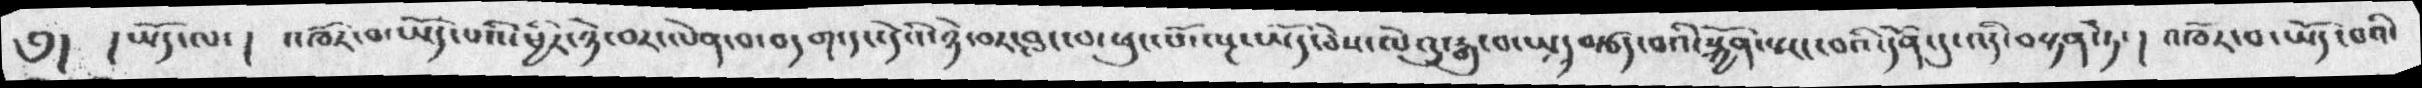༅། །ཡོད་ལ་། འཁོར་བ་ཡོད་པའི་ཕྱིར་ཉེ་བར་ལེན་བ་བདག་དེའི་ཉེ་བར་བླང་བ་ཕུང་པོ་ལྔ་ཡོད་ཅེས་ལེའུ་རྒུ་པ་ཡ།བརྩད་བའི་སྐྱོན་སང་བའི་དོན་དུ་འདི་བསྟན་ཏེ་། འཁོར་བ་ཡོད་བའི་
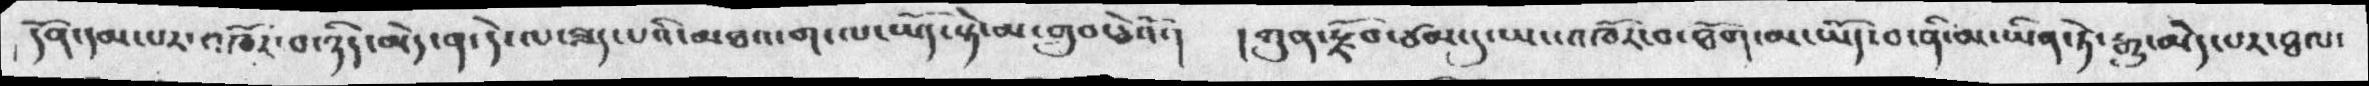དོན་དམ་པར་འཁོར་བ་ཉིད་མེད་ན་དེ་ལ་ཐད་པའི་མཐའ་ག་ལ་ཡོད་སྟེ་མ་གྲུབ་ཅེའོ་།  ། ཀུན་རྫོབ་ཙམ་དུ་ཡང་འཁོར་བ་ཐོག་མ་ཡོད་བ་ནི་མ་ཡིན་ཏེ་རྒྱུ་མེད་པར་ཐལ་
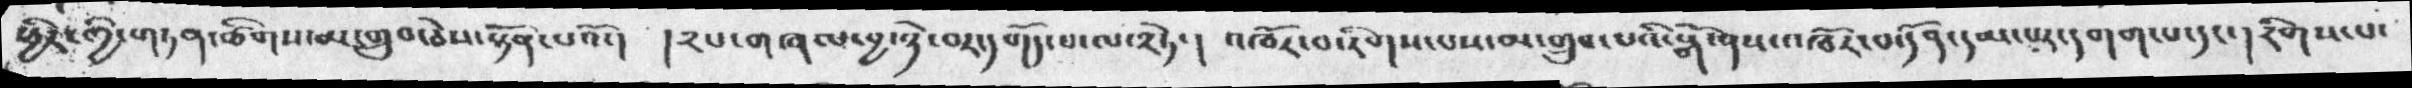ཕྱིར་གྱི་གཏན་ཚིགས་མ་གྲུབ་ཅེས་སྟོན་པའོ་།  །༢པ་གཞལ་བྱ་ཉེ་བར་དགོད་པ་ལ་༢ཏེ་།  འཁོར་བ་རིགས་པས་མ་གྲུབ་པའི་སྒོ་ནས་འཁོར་བ་དོན་དམ་པར་དགག་པ་དང་། རིགས་པ་
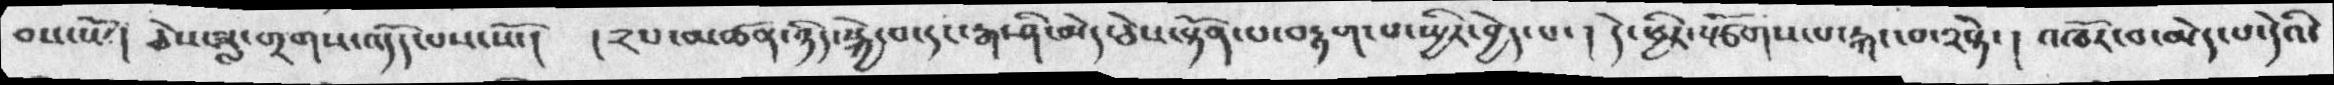བས་སོ་། ཅེས་ཟླ་གྲགས་འདོད་པས་སོ་།  །༢པ་མཚན་ཉིད་སྐྱེ་བ་དང་རྒ་ཤི་མེད་ཅེས་སྟོན་པ་བརྟག་པ་སྤྱིར་བྱེད་པ་། དེ་ཕྱིར་སྩོགས་པ་རྐང་བ་༢སྟེ་། འཁོར་བ་མེད་པ་དེའི་
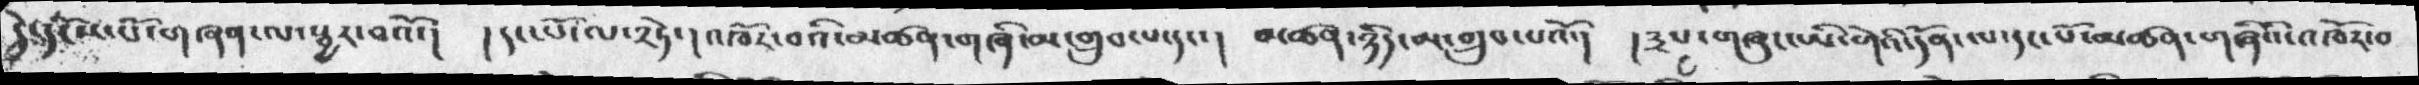དེ་དངོས་པོ་གཞན་ལ་སྦྱར་བའོ་།  །དང་པོ་ལ་༢ཏེ་། འཁོར་བའི་མཚན་གཞི་མ་གྲུབ་པ་དང་། མཚན་ཉིད་མ་གྲུབ་པའོ་། །༣པ་གཞུང་ཡི་གེའི་དོན་ལ་དང་པོ་མཚན་གཞིའི་འཁོར་བ
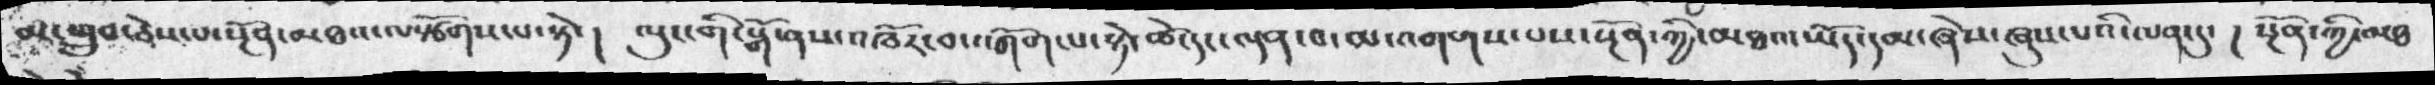མ་གྲུབ་ཅེས་པ་སྔོན་མཐའ་ལསྩོགས་པ་སྟེ་། ལུང་གི་སྒོ་ནས་འཁོར་བ་འགོག་པ་སྟེ་ཚེ་དང་ལྡན་བ་མ་འགགས་པས་སྔོན་ཀྱི་མཐའ་ཡོད་དམ་ཞེས་ཞུས་པའི་ལན་དུ་། སྔོན་ཀྱི་མཐ
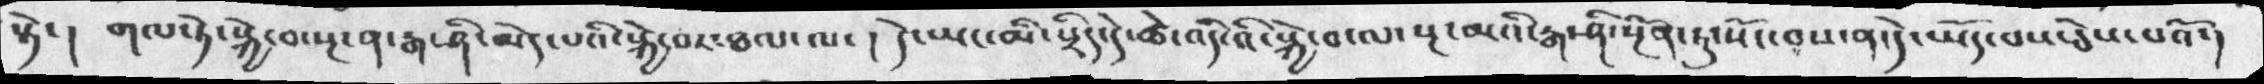སྟེ་། གལ་ཏེ་སྐྱེ་བ་སྔ་མ་རྒ་ཤི་མེད་པའི་སྐྱེ་བར་ཐལ་ལ་། དེ་ཡང་མི་སྲིད་དེ་ཚེ་འདི་འི་སྐྱེ་བ་ལ་སྔ་མའི་རྒ་ཤི་སྔོན་ཏུ་སོང་བས་ན་དེ་ཡོད་བས་ཅེས་པའོ་།
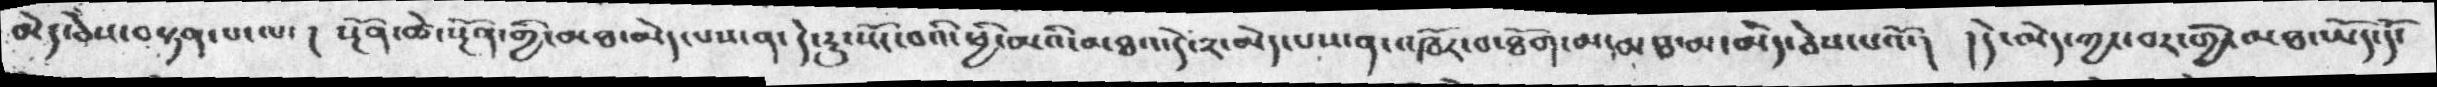མེད་ཅེས་བསྟན་པ་ལ་།  སྔོན་ཚེ་སྔོན་གྱི་མཐ་མེད་པས་ན་དེ་རུ་སོང་བའི་ཕྱི་མའི་མཐའ་དེ་༢་མེད་པས་ན་འཁོར་བ་ཐོག་མ་མཐ་མ་མེད་ཅེས་པའོ་།  །དེ་མེད་ཀྱང་བར་གྱི་མཐ་ཡོད་དོ་
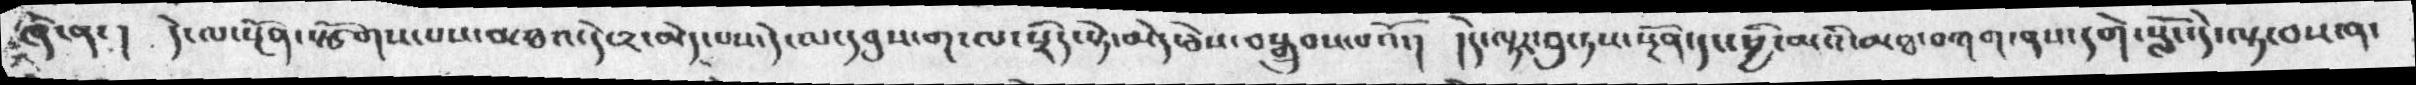ཞེ་ན་། དེ་ལ་སྔོན་སྩོགས་པས་མཐའ་དེ་༢་མེད་པས་དེ་ལ་དབུས་ག་ལ་སྲིད་སྟེ་མེད་ཅེས་བསྒྲུབས་པའོ་།  །དེ་ལྟར་བུ་ཏས་སྔོན་དང་ཕྱི་མའི་མཐ་བཀག་ནས་དགེ་སློང་དེ་ལྟ་བས་ན་
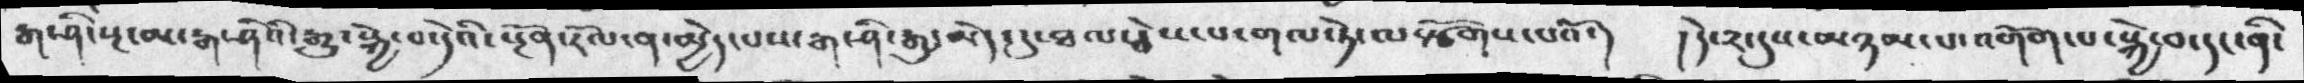རྒ་ཤི་སྔ་མ་རྒ་ཤིའི་རྒྱུ་སྐྱེ་བ་དེའི་སྔོན་རོལ་ན་མྱེད་པས་རྒ་ཤི་རྒུ་མེད་དུ་ཐལ་ཅེས་པ་གལ་ཏེ་ལསྩོགས་པའོ་།  །དེ་༢་དུས་མཉམ་པ་འགོག་པ་སྐྱེ་བ་དང་ནི་
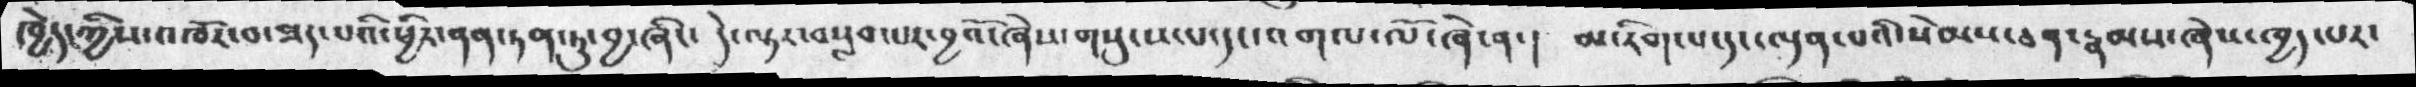ཁྱེད་ཀྱིས་འཁོར་བ་ཟད་པའི་ཕྱིར་ནན་ཏན་དུ་བྱ་ཞིང་ དེ་ལྟར་བསླབ་པར་བྱའོ་ཞེས་གསུངས་པ་དང་འགལ་ལོ་ཞེ་ན་།  མ་རིག་པ་དང་ལྡན་པའི་སེམས་ཅན་རྣམས་ཞེས་ཁྱད་པར་
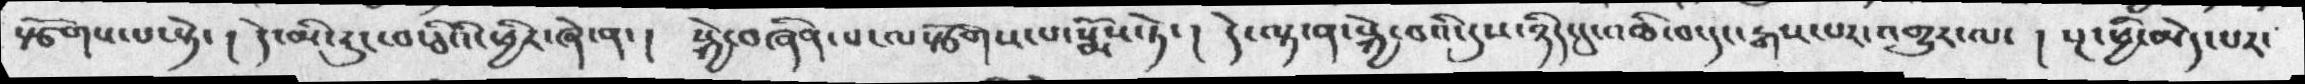སྩོགས་པ་སྟེ་། དེ་མི་རུང་བ་ཅིའི་ཕྱིར་ཞེ་ན་། སྐྱེ་བཞིན་པ་ལསྩོགས་པ་སྨོས་ཏེ་། དེ་ལྟ་ན་སྐྱེ་བའི་དུས་ཉིད་དུ་འཆི་བ་དང་རྒས་པར་འགྱུར་ལ་། སྔ་ཕྱི་མེད་པར་
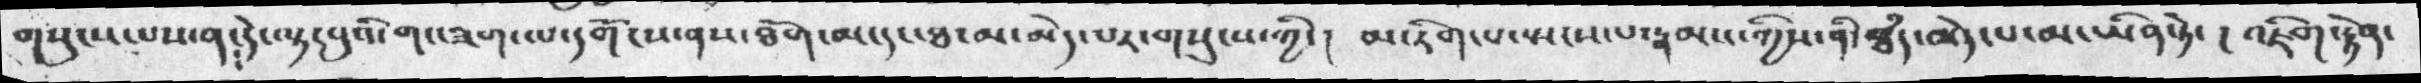གསུངས་པས་ན་དེ་ལྟ་བུའི་གང་ཟག་ལ་དགོངས་ནས་ཐོག་མ་དང་ཐ་མ་མེད་པར་གསུངས་ཀྱི་། མ་རིག་པ་སྤངས་པ་རྣམས་ཀྱིས་ནི་ཐཾད་མེད་པ་མ་ཡིན་ཏེ་། འཇིག་རྟེན་
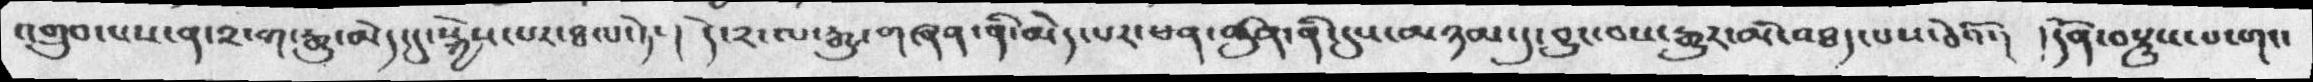འགྲུབ་པས་ན་༢་ག་རྒྱུ་མེད་དུ་སྐྱེས་པར་ཐལ་ཏེ་།  དེ་༢ལ་རྒྱུ་གཞན་ནི་མེད་པར་ཕན་ཚུན་ནི་དུས་མཉམ་དུ་བྱུང་བས་རྒྱུར་མི་འཐད་པས་ཅེའོ་།  །དོན་བསྡུས་པ་གང་
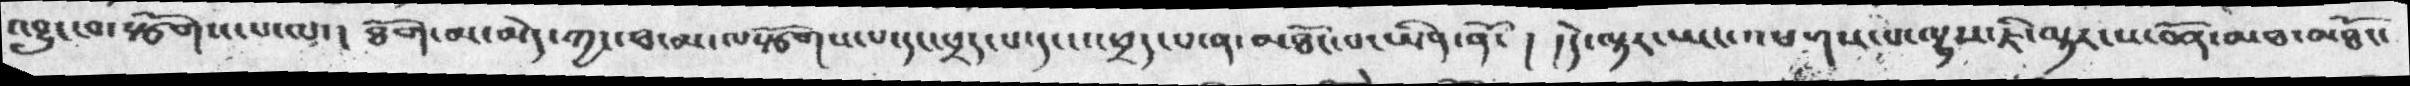འབྱུར་བ་སྩོགས་པ་ལ་།  ཐོག་མ་མེད་ཀྱང་ཕ་མ་ལ་སྩོགས་པ་དང་ཕྲད་པ་དང་ཕྲད་པ་ན་མཐོང་པ་ཡིན་ནོ་།  །དེ་ལྟར་ཡང་འཕགས་པ་ལྷས་ཇི་ལྟར་ས་བོན་མཐ་མཐོང་
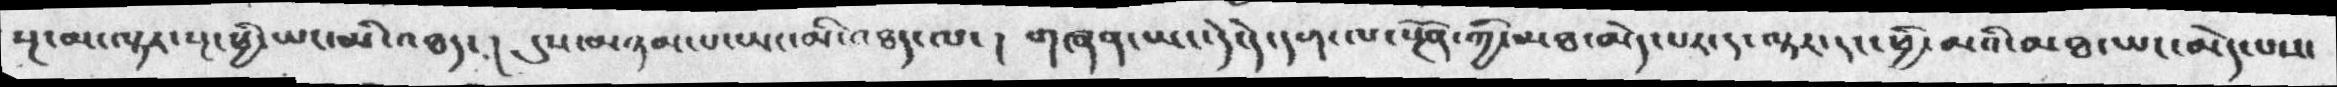སྔ་མ་ལྟར་སྔ་ཕྱི་ཡང་མི་འཐད་།  དུས་མཉམ་པ་ཡང་མི་འཐད་ལ་།  གཞན་ཡང་དེ་དེ་དག་ལ་སྔོན་ཀྱི་མཐ་མེད་པར་ད་ལྟར་དང་ཕྱི་མའི་མཐ་ཡང་མེད་པས་
